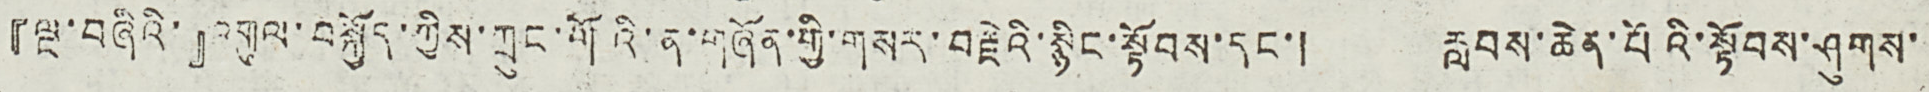『ལྔ་བཞིའི་』འགུལ་བསྐྱོད་ཀྱིས་ཀྲུང་གོའི་ན་གཞོན་གྱི་གསར་བརྗེའི་སྙིང་སྟོབས་དང་། རླབས་ཆེན་པོའི་སྟོབས་ཤུགས་
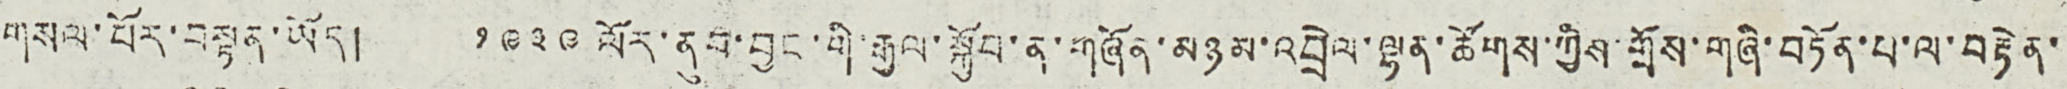གསལ་པོར་བསྟན་ཡོད། ༡༩༢༩ ལོར་ནུབ་བྱང་གི་རྒྱལ་སྐྱོབ་ན་གཞོན་མཉམ་འབྲེལ་ལྷན་ཚོགས་ཀྱིས་གྲོས་གཞི་བཏོན་པ་ལ་བརྟེན་
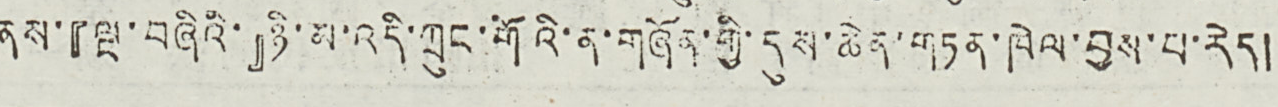ནས་『ལྔ་བཞིའི་』ཉི་མ་འདི་ཀྲུང་གོའི་ན་གཞོན་གྱི་དུས་ཆེན་གཏན་ཁེལ་བྱས་པ་རེད།
